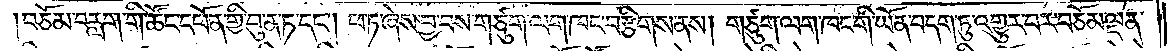བཅོམ་བརླག་གི་ཚོང་དཔོན་གྱི་བུ་ན་ཏ་དང༌། ཕ་ཏ་ཞེས་བྱ་བས་གཙུག་ལག་ཁང་བརྩིགས་ནས། གཙུག་ལག་ཁང་གི་ཡོན་བདག་ཏུ་འགྱུར་བར་བཅོམ་ལྡན་
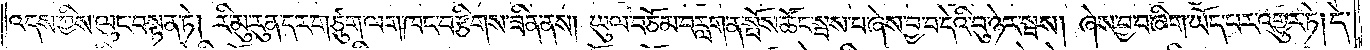འདས་ཀྱིས་ལུང་བསྟན་ཏེ། རི་མུ་རུན་དར་གཙུག་ལག་ཁང་བརྩིགས་ཟིན་ནས། ཡུལ་བཅོམ་བརླག་ན་སྤོས་ཚོང་སྦས་པ་ཞེས་བྱ་བ་དེའི་བུ་ཉེར་སྦས། ཞེས་བྱ་བ་ཞིག་ཡོད་པར་འགྱུར་ཏེ། དེ་
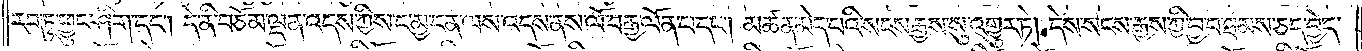རབ་ཏུ་ཕྱུང་ཤིག་དང༌། དེ་ནི་བཅོམ་ལྡན་འདས་ཀྱིས་ང་མྱ་ངན་ལས་འདས་ནས་ལོ་བརྒྱ་ལོན་པ་དང༌། མཚན་མེད་པའི་སངས་རྒྱས་སུ་འགྱུར་ཏེ། དེས་སངས་རྒྱས་ཀྱི་བྱ་བ་ཐམས་ཅད་བྱེད་
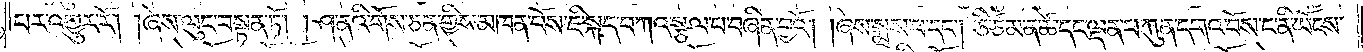པར་འགྱུར་རོ། །ཞེས་ལུང་བསྟན་ཏོ། །ཤ་ནའི་གོས་ཅན་གྱིས་མཁན་པོས་ཇི་སྐད་བཀའ་སྩལ་པ་བཞིན་བྱའོ། །ཞེས་སྨྲས་པ་དང༌། ཅི་ཙམ་ན་ཚེ་དང་ལྡན་པ་ཀུན་དགའ་བོས་ང་ནི་ཡོངས་
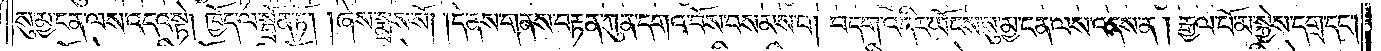སུ་མྱ་ངན་ལས་འདའ་སྟེ། ཁྱོད་ལ་སྦྲོན་ཏོ། །ཞེས་སྨྲས་སོ། །དེ་ནས་གནས་བརྟན་ཀུན་དགའ་བོས་བསམས་པ། བདག་འདིར་ཡོངས་སུ་མྱ་ངན་ལས་འདས་ན། རྒྱལ་པོ་མ་སྐྱེས་དགྲ་དང༌།
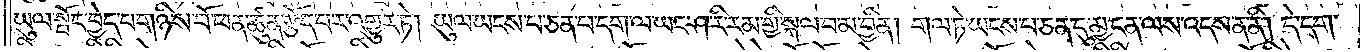ཡུལ་སྤོང་བྱེད་པ་གཉིས་པོ་ཕན་ཚུན་རྩོད་པར་འགྱུར་ཏེ། ཡུལ་ཡངས་པ་ཅན་པ་དག་ལ་ཡང་ཤ་རི་རམ་གྱི་སྐལ་པ་མ་བྱིན། གལ་ཏེ་ཡངས་པ་ཅན་དུ་མྱ་ངན་ལས་འདས་ན་ནི། དེ་དག་
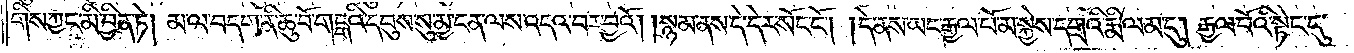གིས་ཀྱང་མི་བྱིན་ཏེ། མ་ལ་བདག་ནི་ཆུ་བོ་གངྒཱའི་དབུས་སུ་མྱ་ངན་ལས་འདའ་བར་བྱའོ། །སྙམ་ནས་དེ་དེར་སོང་ངོ༌། །དེ་ནས་ཡང་རྒྱལ་པོ་མ་སྐྱེས་དགྲའི་རྨི་ལམ་དུ། རྒྱལ་པོའི་སྟེང་དུ་
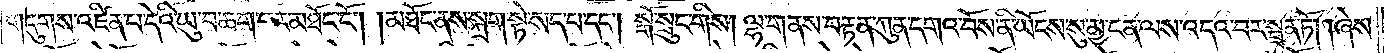གདུགས་འཛིན་པ་དེའི་ཡུ་བ་ཆག་པར་མཐོང་ངོ༌། །མཐོང་ནས་སྐྲག་སྟེ་སད་པ་དང༌། སྒོ་སྲུང་གིས། ལྷ་གནས་བརྟན་ཀུན་དགའ་བོས་ནི་ཡོངས་སུ་མྱ་ངན་ལས་འདའ་བར་སྦྲན་ཏོ། །ཞེས་
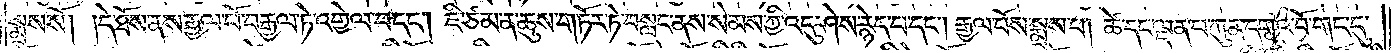སྨྲས་སོ། །དེ་ཐོས་ནས་རྒྱལ་པོ་བརྒྱལ་ཏེ་འགྱེལ་བ་དང༌། ཇི་ཙམ་ན་ཆུས་གཏོར་ཏེ་བསླང་ནས་སེམས་ཀྱི་འདུ་ཤེས་རྙེད་པ་དང༌། རྒྱལ་པོས་སྨྲས་པ། ཚེ་དང་ལྡན་པ་ཀུན་དགའ་བོ་གང་དུ་
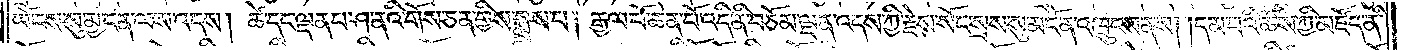ཡོངས་སུ་མྱ་ངན་ལས་འདས། ཚེ་དང་ལྡན་པ་ཤ་ནའི་གོས་ཅན་གྱིས་སྨྲས་པ། རྒྱལ་པོ་ཆེན་པོ་འདི་ནི་བཅོམ་ལྡན་འདས་ཀྱི་རྗེས་སོང་སྲས་སུ་མངོན་འཁྲུངས་ནས། །དམ་པའི་ཆོས་ཀྱི་མཛོད་ནི་
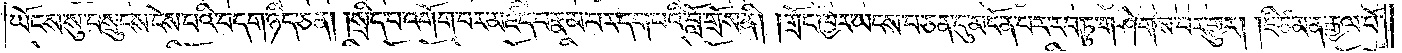ཡོངས་སུ་བསྲུངས་ངོས་པའི་བདག་ཉིད་ཅན། །སྲིད་པ་འགོག་པར་མཛད་པ་རྣམ་པར་དག་པའི་བློ་གྲོས་ནི། །གྲོང་ཁྱེར་ཡངས་པ་ཅན་དུ་མངོན་པར་རབ་ཏུ་གཤེགས་པར་གྱུར། །ཇི་ཙམ་ན་རྒྱལ་པོ་
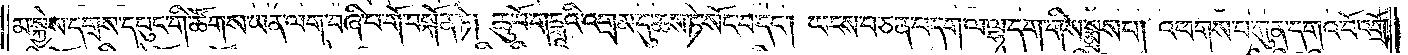མ་སྐྱེས་དགྲས་དཔུང་གི་ཚོགས་ཡན་ལག་བཞི་པ་གོ་བསྐོན་ཏེ། ཆུ་བོ་གངྒཱའི་འགྲམ་དུ་ཆས་ཏེ་སོང་བ་དང༌། ཡངས་པ་ཅན་བདག་ལ་ལྷ་དག་གིས་སྨྲས་པ། འཕགས་པ་ཀུན་དགའ་བོ་འགྲོ་
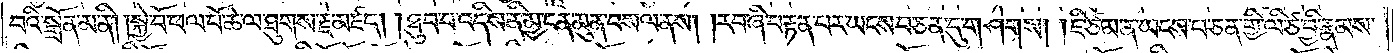བའི་སྒྲོན་མ་ནི། །སྐྱེ་བོ་ཕལ་པོ་ཆེ་ལ་ཐུགས་རྗེ་མཛད། །ཐུབ་པ་འདིས་ནི་མྱ་ངན་མུན་བསལ་ནས། །རབ་ཞི་བརྟན་པར་ཡངས་པ་ཅན་དུ་གཤེགས། །ཇི་ཙམ་ན་ཡངས་པ་ཅན་གྱི་ལི་ཙ་བྱི་རྣམས་
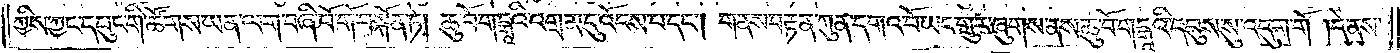ཀྱིས་ཀྱང་དཔུང་གི་ཚོགས་ཡན་ལག་བཞི་པོ་གོ་བསྐོན་ཏེ། ཆུ་བོ་གངྒཱའི་འགྲམ་དུ་འོངས་པ་དང༌། གནས་བརྟན་ཀུན་དགའ་བོ་ཡང་གྲུར་ཞུགས་ནས་ཆུ་བོ་གངྒཱའི་དབུས་སུ་འདུག་གོ །དེ་ནས་
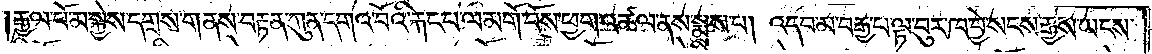རྒྱལ་པོ་མ་སྐྱེས་དགྲས་གནས་བརྟན་ཀུན་དགའ་བོའི་རྐང་པ་ལ་མགོ་བོས་ཕྱག་འཚལ་ནས་སྨྲས་པ། འདབ་མ་བརྒྱ་པ་ལྟ་བུར་ཁ་བྱེ་སངས་རྒྱས་ཡངས་
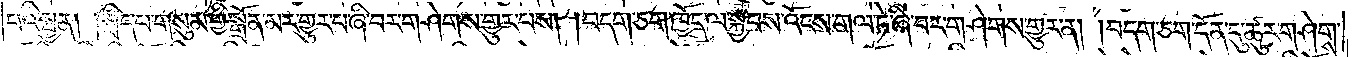པའི་སྤྱན། །སྲིད་པ་གསུམ་གྱི་སྒྲོན་མར་གྱུར་པ་ཞི་བར་གཤེགས་གྱུར་པས། །བདག་ཅག་ཁྱོད་ལ་སྐྱབས་འོངས་གལ་ཏེ་ཞི་བར་གཤེགས་གྱུར་ན། །བདག་ཅག་དོན་དུ་ཚུར་གཤེགས་
